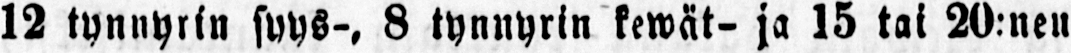12 tynnyrin syys-, 8 tynnyrin kewät- ja 15 tai 20:neu
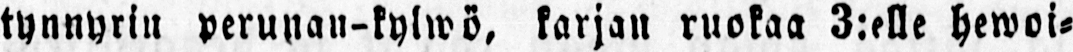tynnyrin perunan-kylwö, karjan ruokaa 3:elle hewoi-
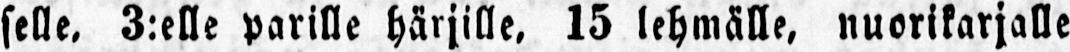selle. 3:elle parille härjille, 15 lehmälle, nuorikarjalle
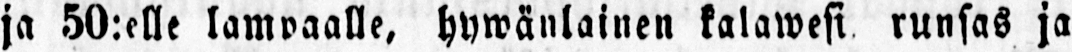ja 50:elle lampaalle, hywänlainen kalawesi runsas ja
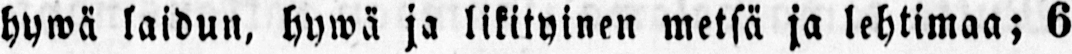hywä laidun, hywä ja likityinen metsä ja lehtimaa; 6
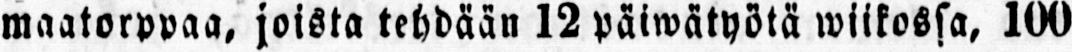maatorppaa, joista tehdään 12 päiwätyötä wiikossa, 100
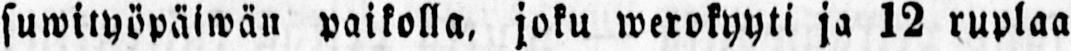suwityöpaiwän paikolla, joku werokyyti ja 12 ruplaa
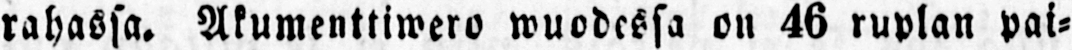rahassa. Akumenttiwero wuodessa on 46 ruplan pai-
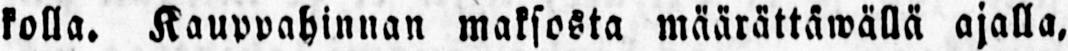kolla. Kauppahinnan maksosta määrättäwällä ajalla,
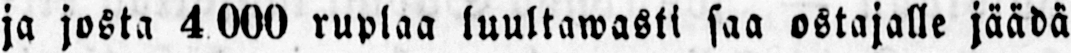ja josta 4000 ruplaa luultawasti saa ostajalle jäädä
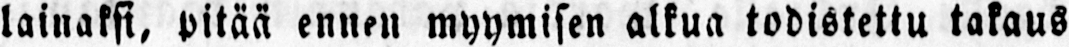lainaksi, pitää ennen myymisen alkua todistettu takaus
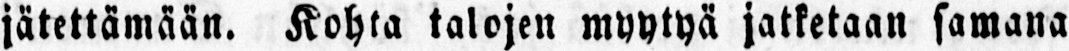jätettämään. Kohta talojen myytyä jatketaan samana
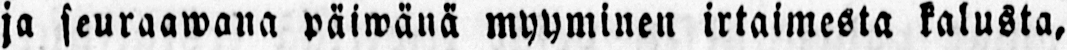ja seuraawana päiwänä myyminen irtaimesta kalusta,
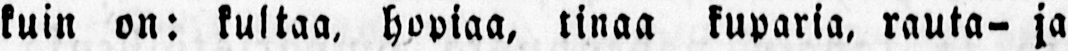kuin on: kultaa, hopiaa, tinaa kuparia, rauta- ja
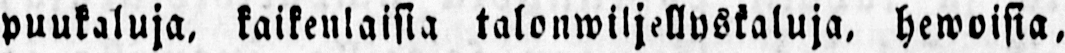puukaluja, kaikenlaisia talonwiljellyskaluja, hewoisia,
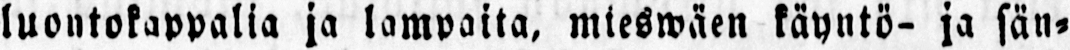luontokappalia ja lampaita, mieswäen käyntö- ja sän-
